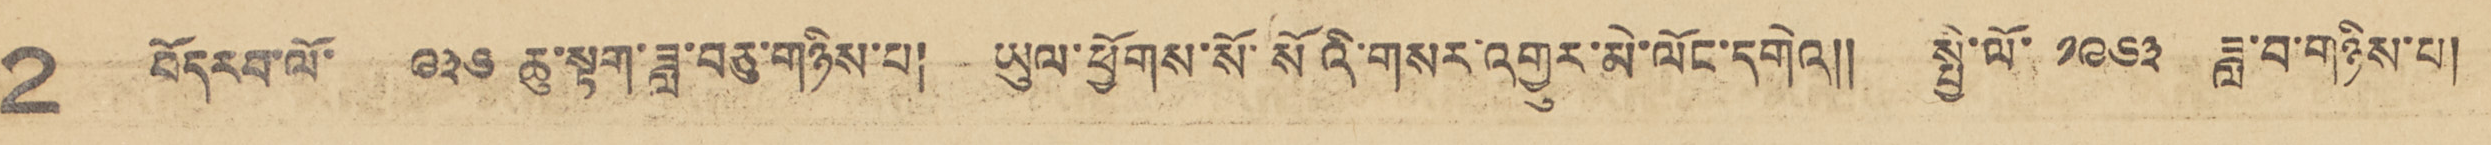2 བོདརབ་ལོ་ ༩༣༦ ཆུ་སྟག་ཟླ་བཅུ་གཉིས་པ། ཡུལ་ཕྱོགས་སོ་སོའི་གསར་འགྱུར་མེ་ལོང་དགེའི།། སྤྱི་ལོ་ ༡༩༦༣ ཟླ་བ་གཉིས་པ།
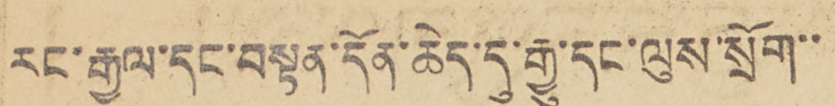རང་རྒྱལ་དང་བསྟན་དོན་ཆེད་དུ་རྒྱུ་དང་ལུས་སྲོག་་
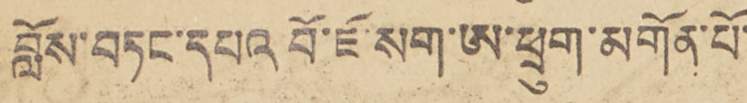བློས་བཏང་དཔའ་བོ་ཇོ་སག་ཨ་ཕྲུག་མགོན་པོ་
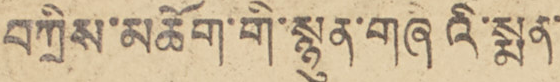བཀྲིས་མཆོག་གི་སྙུན་གཞིའི་སྨན་
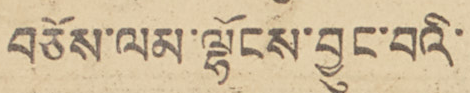བཅོས་ལམ་ལྷོངས་བྱུང་བའི་
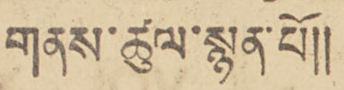གནས་ཚུལ་སྙན་པོ།།
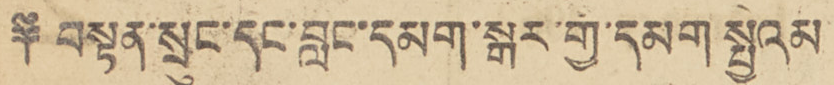༈ བསྟན་སྲུང་དང་བླང་དམག་སྒར་གྱ་དམག སྤྱིའམ་
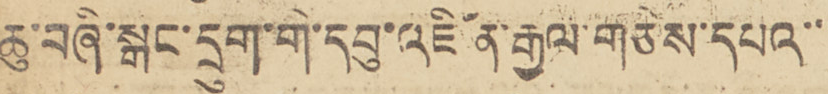ཆུ་བཞི་སྒང་དྲུག་གི་དབུ་འཛིན་རྒྱལ་གཅེས་དཔའ་་་
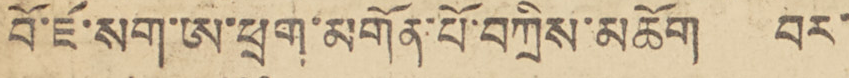བོ་ཇོ་སག་ཨ་ཕྲུག་མགོན་པོ་བཀྲིས་མཆོག བར་
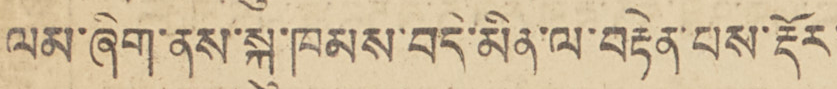ལམ་ཞིག་ནས་སྐུ་ཁམས་བདེ་མིན་ལ་བརྟེན་པས་རྡོར་
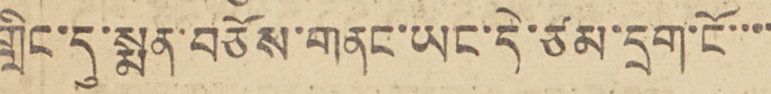གླིང་དུ་སྨན་བཅོས་གནང་ཡང་དེ་ཙམ་དྲག་ངོ་་་་
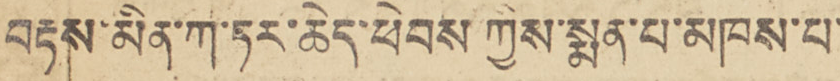བརྟན་མིན་ཀ་ཏར་ཆེད་ཕེབས ཀྱིས་སྨན་པ་མཁས་པ་
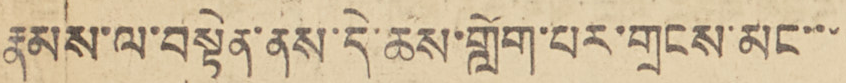རྣམས་ལ་བསྟེན་ནས་དེ་ཆས་གློག་པར་གྲངས་མང་་་
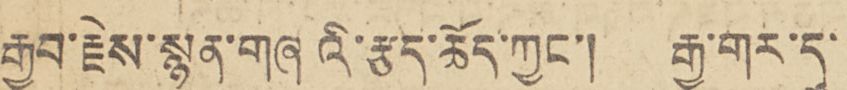རྒྱབ་རྗེས་སྙུན་གཞའི་རྩད་ཆོད་ཀྱང་། རྒྱ་གར་དུ་
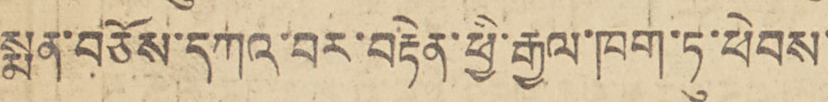སྨན་བཅོས་དཀའ་བར་བརྟེན་ཕྱི་རྒྱལ་ཁག་ཏུ་ཕེབས་
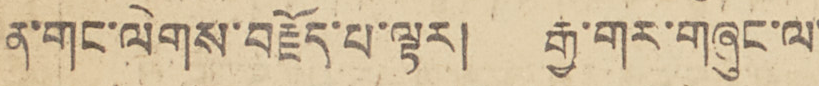ན་གང་ལེགས་བརྗོད་པ་ལྟར། རྒྱ་གར་གཞུང་ལ་
